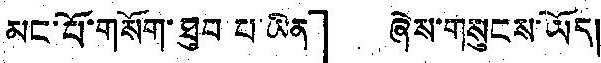མང་པོ་གསོག་ཐུབ པ་ཡིན」 ཞེས་གསུངས་ཡོད།
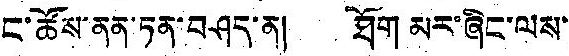ང་ཚོས་ནན་ཏན་བཤད་ན། ཐོག མར་ཞིང་ལས་
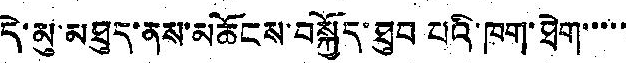དེ་མུ་མཐུད་ནས་མཆོངས་བསྐྱོད་ཐུབ པའི་ཁག་ཐེག་་་་་
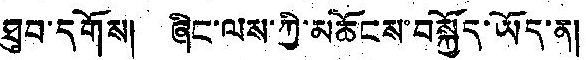ཐུབ་དགོས། ཞིང་ལས་ཀྱི་མཆོངས་བསྐྱོད་ཡོད་ན།
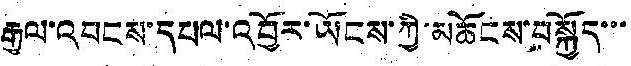རྒྱལ་འབངས་དཔལ་འབྱོར་ཡོངས་ཀྱི་མཆོངས་བསྐྱོད་་་
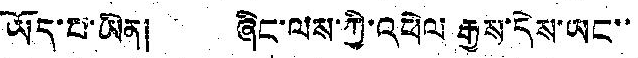ཡོད་པ་ཡིན། ཞིང་ལས་ཀྱི་འཕེལ རྒྱས་དེས་ཡང་་
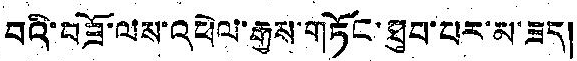བའི་བཟོ་ལས་འཕེལ་རྒྱས་གཏོང་ཐུབ་པར་མ་ཟད།
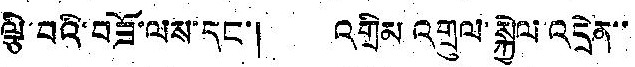ལྕི་བའི་བཟོ་ལས་དང་། འགྲིམ འགྲུལ་སྐྱེལ་འདྲེན་་
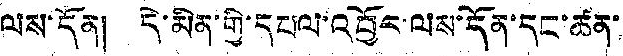ལས་དོན། དེ་མིན་གྱི་དཔལ་འབྱོར་ལས་དོན་དང་ཚན་
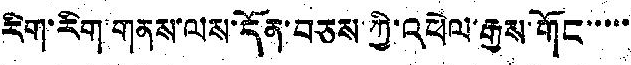རིག་རིག་གནས་ལས་དོན་བཅས ཀྱི་འཕེལ་རྒྱས་གོང་་་་་
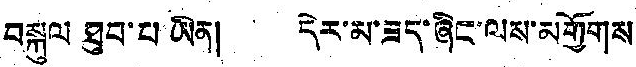བསྐུལ ཐུབ་པ ཡིན། དེར་མ་ཟད་ཞིང་ལས་མགྱོགས
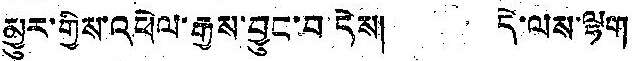མྱུར་གྱིས་འཕེལ་རྒྱས་བྱུང་བ་དེས། དེ་ལས་ལྷག
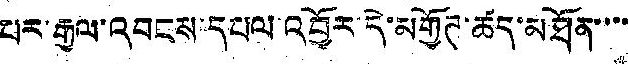པར་རྒྱལ་འབངས་དཔལ་འབྱོར་དེ་མགྱོཊ་ཚད་མཐོན་་་་
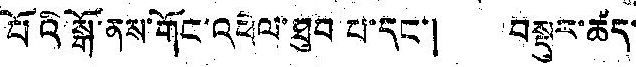པོའི་སྒོ་ནས་གོང་འཕེལ་ཐུབ པ་དང་། བསྡུར་ཚད་
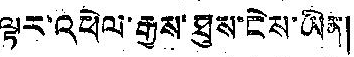ལྟར་འཕེལ་རྒྱས་ཐུས་ངེས་ཡིན།
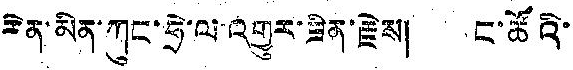རེན་མིན་ཀུང་ཧྲེ་ལ་འགྱུར་ཟིན་རྗེས། ང་ཚོའི་
